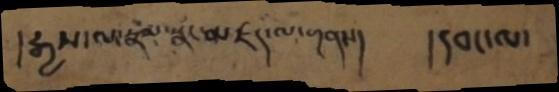།རྒྱས་ལ་རྣམ་སྣང་མཛད་ལ་གནས་།  །དབང་ལ་
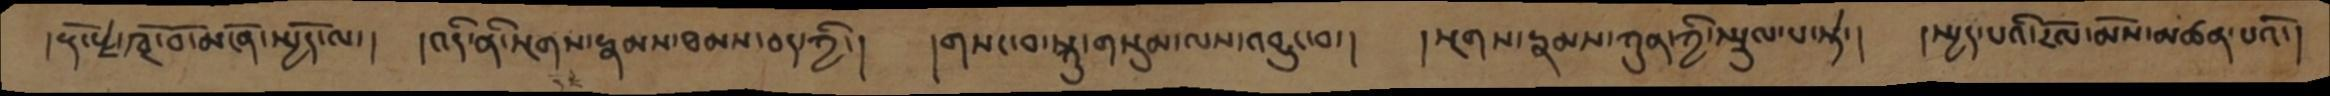།རྡོ་རྗེ་ཁྲོ་བོ་མངོན་སྤྱོད་ལ་།  །འདི་ནི་སྔགས་རྣམས་ཐམས་ཅད་ཀྱི་།  །གསང་བ་སྐུ་གསུམ་ལས་བྱུང་བ་།  །སྔགས་རྣམས་ཀུན་ཀྱི་སྤྲུལ་པ་སྟེ་།  །སྤྱད་པའི་རོལ་མོས་མཚན་པའོ་།
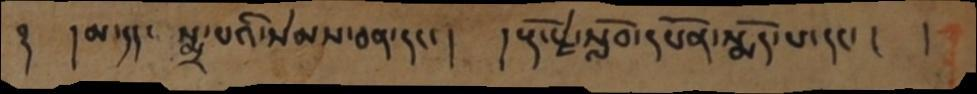༈  །མ་དད་སྨྲ་པའི་སེམས་ཅན་དང་།  །རྡོ་རྗེ་སློབ་དཔོན་སྨོད་པ་དང་།   །
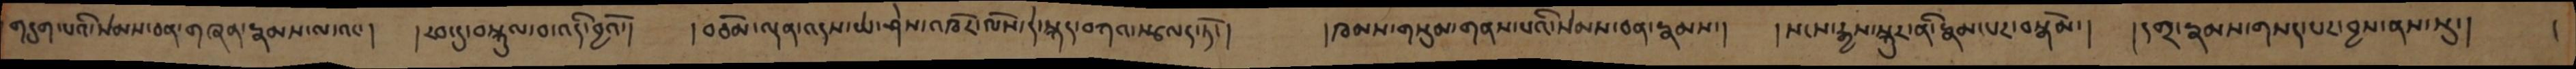གདུག་པའི་སེམས་ཅན་གཞན་རྣམས་ལ་འང་།   །རབ་དུ་བསྐུལ་བ་འདི་བྱའོ་།     །བཅོམ་ལྡན་འདས་ཡེ་ཤེས་འཁོར་ལོས་དེ་སྐདབཀའ་སྩལད་ཏོ་།   །ཁམས་གསུམ་གནས་པའི་སེམས་ཅན་རྣམས་།     །སངས་རྒྱས་སྐུར་ནི་རྣམ་པར་བསྒོམ་།     །དགྲ་རྣམས་གསད་པར་བྱས་ནས་སུ་།    །
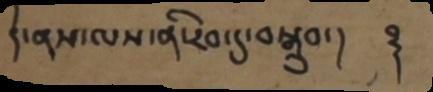དེ་ནས་ལས་ནི་རབ་དུ་བསྒྲུབ་།   ࿑
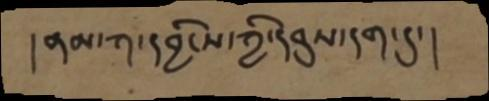།ནམ་ཀ་དབྱིངས་ཀྱི་དབུས་དག་དུ་།
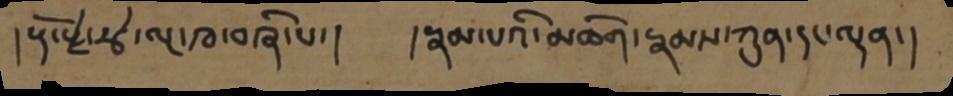།རྡོ་རྗེ་རྩེ་ལྔ་ཁ་བཞི་པ་།     །རྣམ་པའི་མཆོག་རྣམས་ཀུན་དང་ལྡན་།
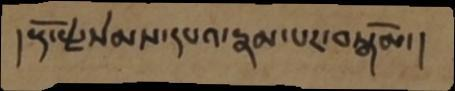།རྡོ་རྗེ་སེམས་དཔའ་རྣམ་པར་བསྒོམ་།
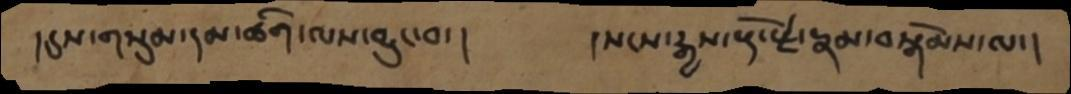།དུས་གསུམ་དམ་ཚིག་ལས་བྱུང་བ་།  །སངས་རྒྱས་རྡོ་རྗེ་རྣམ་བསྒོམས་ལ་།
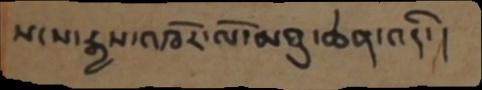སངས་རྒྱས་འཁོར་ལོ་མཐུ་ཆེན་འདི་།
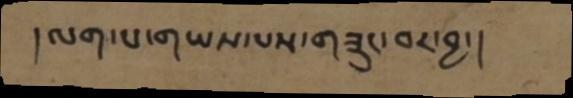།ལག་པ་གཡས་པས་གཟུང་བར་བྱ་།
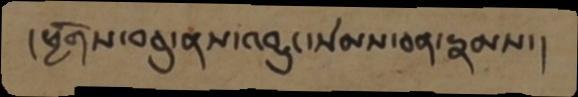།ཕྱོགས་བཅུ་ནས་འབྱུང་སེམས་ཅན་རྣམས་།
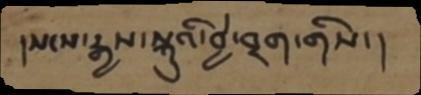།སངས་རྒྱས་སྐུའི་བྱེ་བྲག་གིས་།
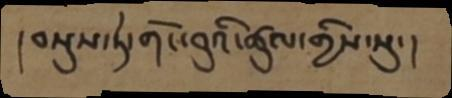།བསྡུས་ཏེ་གོང་བུའི་ཚུལ་གྱིས་སུ་།
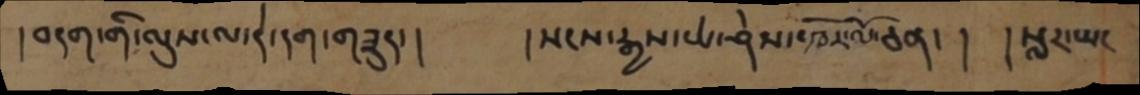།བདག་གི་ལུས་ལ་དེ་དག་གཟུད་།  །སངས་རྒྱས་ཡེ་ཤེས་ཁོར་ལོ་ཅན་།  །སླར་ཡང་
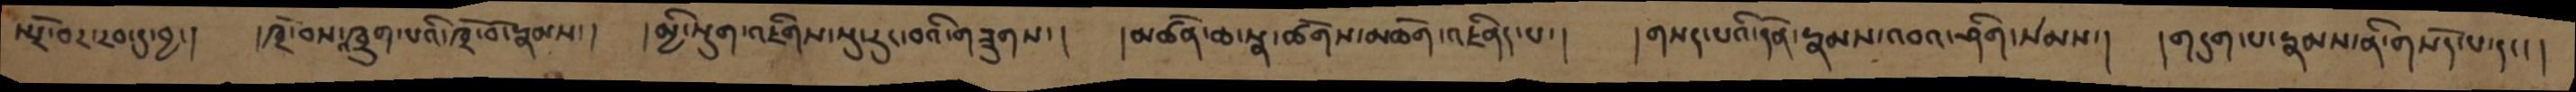སྤྲོ་བར་རབ་དུ་བྱ་།  །ཁྲོ་བས་འཁྲུག་པའི་ཁྲོ་བོ་རྣམས་།  །མྱི་སྡུག་འཇིགས་སུ་རུང་བའི་གཟུགས་།  །མཚོན་ཆ་སྣ་ཚོགས་མཆོག་འཛིནད་པ་།   །གསད་པའི་དོན་རྣམས་འབའ་ཤིག་སེམས་།  །གདུག་པ་རྣམས་ནི་གསོད་པ་དང་།
